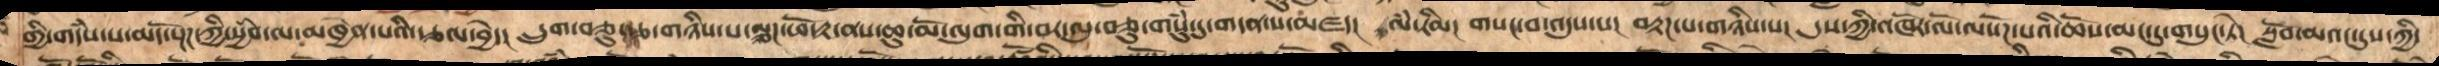གྱི་གདཾས་པས་མདོ་སྔད་ཀྱི་སྱཾབ་ལ་མཁྱེན་པའི་རྩལ་བྱེ།  དྲུག་ཅུ་རྩ་གཉིས་པ་ལྕཌ་ཕོ་རྟ་ནས་ཆུ་མོ་ལུག་གི་བར་ལུ་བཅུ་གསུཾ་དུ་གདན་ས་མཛད་།  ལཾ་རིམ།  གསང་བ་འདུས་པ།  བརྟཌ་པ་གཉིས་པ།  དུས་ཀྱི་འཁོར་ལོ་ལསོཌ་པའི་ཆོས་མང་དུ་གསུང་ཏེ།  སློབ་མའང་དུས་ཀྱི་
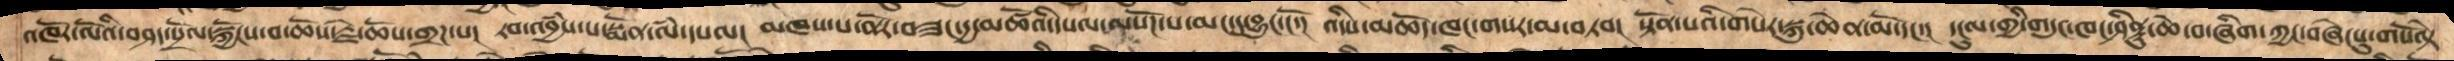འཁོར་ལོའི་བཤད་སྲོལ་སྐྱོངས་བ་ཆོས་རྗེ་ཆོས་གྲཌ་པ། རབ་འབྱཾས་པ་སྨོན་ལཾ་དཔལ།  མཁས་པ་ནོར་བཟང་དྱ་མཚོའི་དཔལ་ལསོཌ་པ་མང་དུ་བྱུང་ངོ་།  འདིས་མཆོད་ཁང་གསར་མ་བཏབ།  སྟོན་པའི་གསེར་སྐུ་ཆེན་མོ་དང་།  དངུལ་གྱི་གདུང་ཁང་ཤིནྟུ་ཆེ་བ་ཞིག་ཀྱང་བཞེངསུ་གསོལྟེ
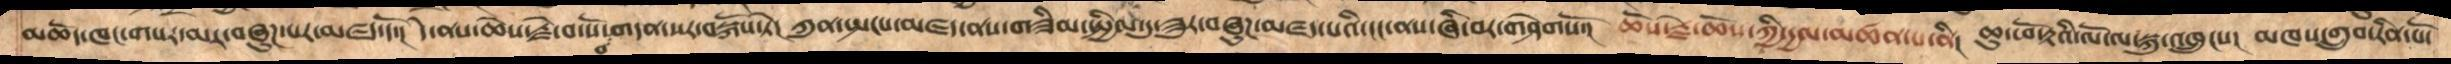མཆོད་ཁང་གསར་མར་བཞུཌ་པར་མཛད་དོ་།  དེ་ནས་ཆོས་རྗེ་བ་སོ་བ་གདན་སར་བསྐོས་ཏེ། ཀུན་སྤངས་མཛད་ནས་གཟིམ་སྤྱིལ་དུ་ཟུར་བཞུཌ་མཛད་པའི་ངང་ནས་ཞི་བར་གཤེགསོ་།  ཆོས་རྗེ་ཆོས་ཀྱི་དྱལ་མཚན་པ་ནི། ཆུ་ཕོ་རྟའི་ལོ་ལ་སྐུ་འཁྲུངས། མཁས་གྲུབ་རིན་པོ་
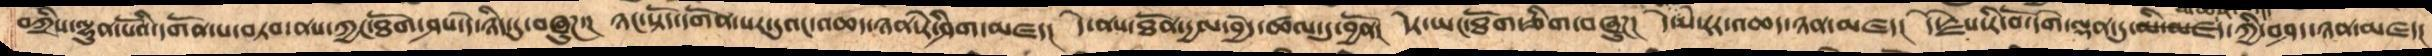བཀྲིས་ལྷུན་པོའི་དགོན་པ་བཏབ་ནས་ཀྱང་ཐོག་ཤས་དེ་ཉིད་དུ་བཞུཌ་།  ཉང་སྟོད་དགོན་པར་དུའང་འཆད་ཉན་རེ་ཤིག་མཛད།  དེ་ནས་ཐོན་དྱལ་བྱེད་ཚལ་དུ་བྱོན།  དེར་ཡང་ཐོག་ཅིག་བཞུཌ།  དེ་སེ་རར་འཆད་ཉན་མཛད།  དེ་རྗེས་རི་བོ་དགེ་ལྡན་དུ་མི་མཛད་ཀྱི་བཤད་ཉན་མཛད།
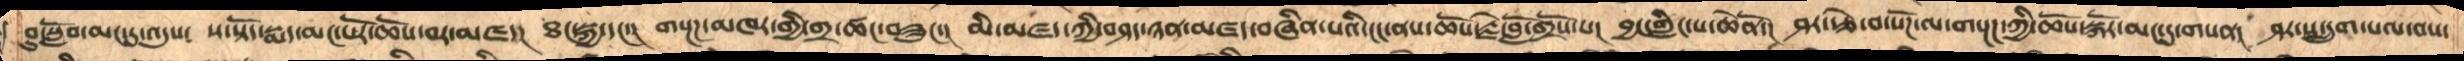བུ་སློབ་མང་དུ་འདུས།  ས་སྟོད་སྨད་མང་པོར་ཆོས་བར་མཛད།  ཐང་སྐྱ་དང་།  གསྔཌ་མཁར་གྱི་གྲ་ཚང་བཟུང་།  མི་མཛད་ཀྱི་བཤད་ཉན་མཛད་བཞིན་པའི་ངང་ནས་ཆོས་རྗེ་བློ་གྲོས་པ།  བྱང་གླིང་པ་ཆེནོ་།   ཤར་རྩེ་བ་སོཌ་ལ་གསྔཌ་ཀྱི་ཆོས་སྐོར་མང་དུ་གསན།  ཤར་ས་དྲུག་པལ་བས་
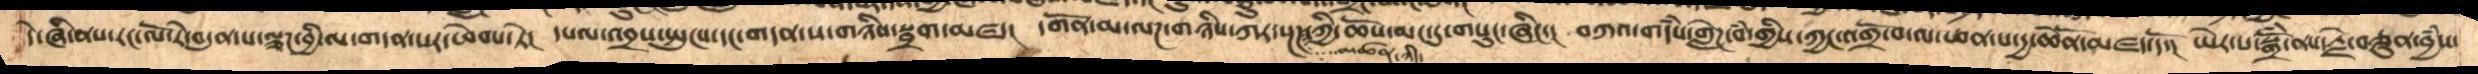དེ་ཞི་ནས་རང་ལོ་རེ་བདུན་པ་ལྕཌ་བྱི་ལ་གདན་སར་ཕེབས་ཏེ། དཔལ་འབྲས་སྤུངས་དང་གདན་ས་གཉིས་སྦྲག་མཛད། དགོན་མ་ལཌ་གཉིས་ཀར་སྔཌ་ཀྱི་ཆསོ་མང་དུ་གསུང་ཞིང་།  བཀའ་གདཾས་གླེཌ་བཾ་གྱིས་ཀྱང་འགྲོ་བ་ལ་ཕན་པ་དྱ་ཆེནོ་མཛད་དོ་།  ཡེར་པ་སྒྲོཾ་ནས་རྗེ་བཙུན་བྱཾས་
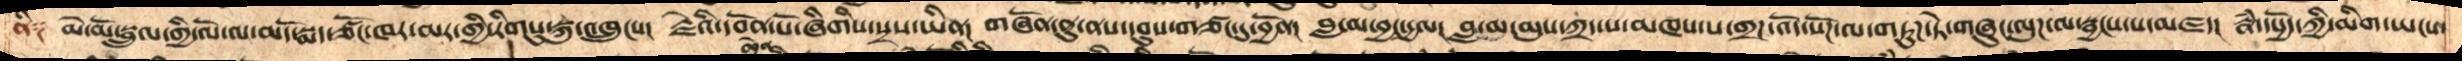ནི༑  མེ་མོ་སྦྲུལ་གྱི་ལོ་ལ་མདོ་སྨད་ཙོང་ཁར་མར་གྱི་རིགསུ་སྐུ་འཁྲུངས། རྗེའི་དབོན་པོ་ཞིགིས་སྲས་ཡིན། གཞོན་ནུ་ནས་དབུས་གཙང་དུ་བྱོན། བླ་མ་བྱང་དྱལ། བླ་མ་མུས་ཀྲད་པ་མཁས་པ་གྲཌ་འོད་སོཌ་ལ་གཏུཌ་ཏེ་གཞུ་ལུཌ་ལ་སྦྱངས་པ་མཛད།  རྣཾ་དཔྱོད་ཀྱི་མིག་ཡངས་
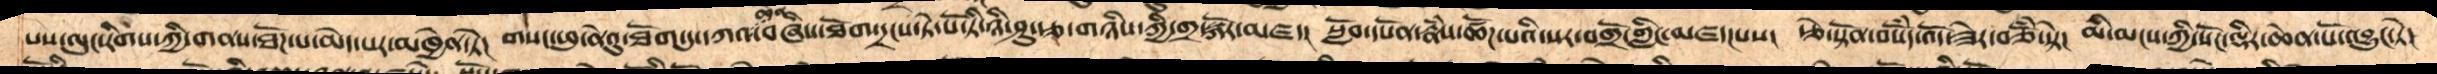པས་ལུང་རིགས་ཀྱི་གནས་ཐོཌ་པ་མེད་པར་མཁྱེན་ཏེ། གསང་ཕུ་ནེའུ་ཐོག་དུ་དཀའ་ཆེན་བཞིས་ཐོག་དྲངས་ཏེ་པོ་ཏི་ཉི་ཤུ་རྩ་གཉིས་ཀྱི་གྲ་སྐོར་མཛད། སློབ་དཔོན་རྣཾས་ཚོཌ་པའི་སར་བགྲོ་གླེངམཛད་པས།  རྩེ་སྟོན་བསོཾད་འོད་ཟེར་བཅོཾ་སྟེ། མི་དམངས་ཀྱི་སོང་ལྡིར་ཆེན་པོ་འབྱུང་ཏེ།
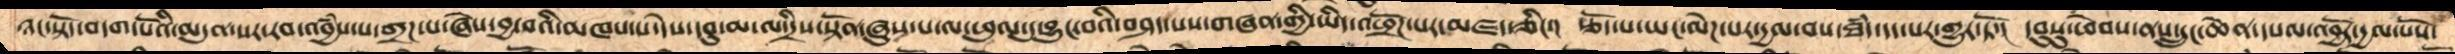ཉང་སྟོད་བདག་པོའི་མདུན་སར་རབ་འབྱཾས་པ་གྲཌ་པ་ཞེས་བྱ་བའི་མཁས་པ་དེས་དབུ་མ་ལ་དྲིས་སྟོན་ཞུས་པ་ལ་ཕུལ་དུ་བྱུང་བའི་བཤད་པས་གཞན་གྱི་ཡིད་འཕྲོཌ་པར་མཛད་ཅིང་།  རྩོད་པ་ཡང་ལེཌ་པར་དྱལ་བས་ཐཾད་དད་པར་གྱུར་ཏོ།  དབུསུ་ཕེབས་ནས་དྲུང་ཆེན་དཔལ་འབྱོར་དྱལ་པོས་
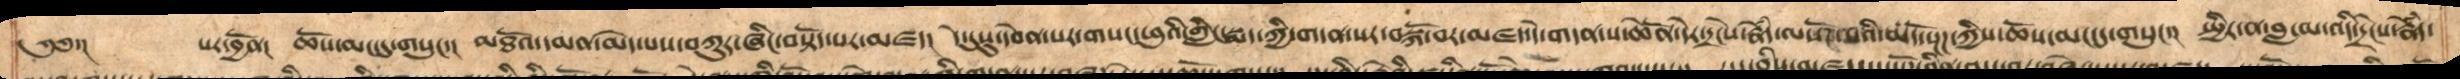༄༅་།    པར་བྱོན། ཆོས་མང་དུ་གསུང་། མཐོའ་དམན་མེད་པས་བཀུར་ཞིང་བསྟོད་པར་མཛད། དེ་དུསུ་དབེན་པརགསང་ཕུའི་གླིང་སྨད་ཀྱི་གདན་སར་བསྐོ་བར་མཛད་དེ་གདན་ས་ཆེནོ་དེར་དྲངེས་རྣེཾད་ལསོཌ་པའི་མདོ་སྔཌ་ཀྱིས་ཆོས་མང་དུ་གསུང་། སྤྱིར་ན་བླ་མ་འདི་དྲངེས་རྣེཾད་
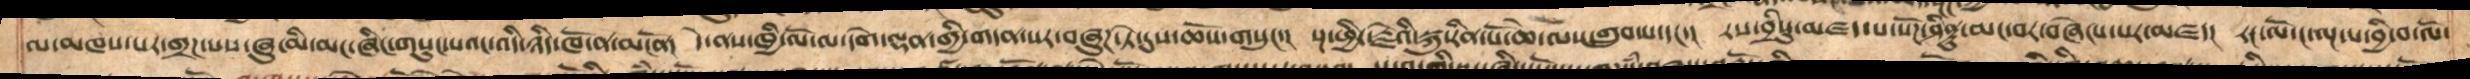ལ་མཁས་པར་གྲཌ་པས་ཞུ་མི་མང་ཞིང་གསུངས་པའང་འདི་ཉིད་ཁོ་ན་མངོན།  དེ་ནས་ཁྱི་ལོ་ལ་དགེ་ལྡན་གྱི་གདན་སར་བཞུཌ་ཏེ་དུས་ཆོས་གསུངས།  སྔ་ཕྱིར་རྗེའི་སྐུ་རིན་པོ་ཆེ་ལས་གྲུབ་པ་དང་།  རས་བྲིསུ་མཛད་པ་སོཌ་ཤིནྟུ་མང་བར་བཞེངས་པར་མཛད།  རང་ལོ་ང་ལྔ་པ་བྱི་བ་ལོ་
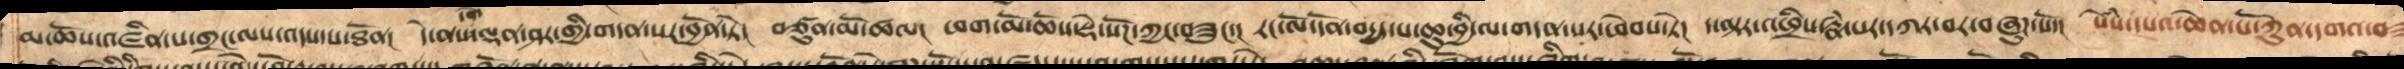མ་ཆོས་འཛིན་པ་གྲང་ལས་འདས་པ་ཐོན། དེ་ནས་དགེ་ལྡན་ཤར་གྱི་གདན་སར་བྱོན་ཏེ། བཙུན་མོ་ཚལ། ཕག་མོ་ཆོས་སྡེ་སོཌ་ཀྱང་བཟུང་། རང་ལོ་དོན་བདྱད་པ་ཆུ་བྱི་ལ་གདན་སར་ཕེབས་ཏེ། ད་ལྟ་འཕྲིས་རྣཾ་པར་དཀར་བར་བཞུཌ་སོ། སེཾས་དཔལ་ཆེན་པོ་ཀུན་དགའ་བཟང
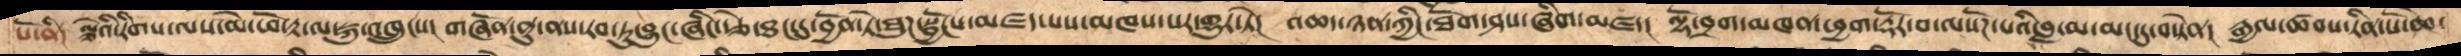པོ་ནི།  ལྕེའི་རིགས་ལས་མེ་ཕོ་རྟ་ལ་སྐུ་འཁྲུངས།  གཞོན་ནུ་ནས་རབ་ཏུ་བྱུང་ཞིང་རྩེ་ཐང་དུ་བྱོན་ཏེ་ཐུཌ་སྦྱོངས་མཛད་པས་མཁས་པར་གྱུར་ཏེ།  འཆད་ཉན་ཀྱིང་ཐོག་ཤས་ཞིག་མཛད། ལྷོ་བྲག་མཁན་ཕྱག་རྡོར་བ་ལསོཌ་པའི་བླ་མ་མང་དུ་བསྟེན།  རྒྱལ་ཚབས་རིན་པོ་ཆེ་
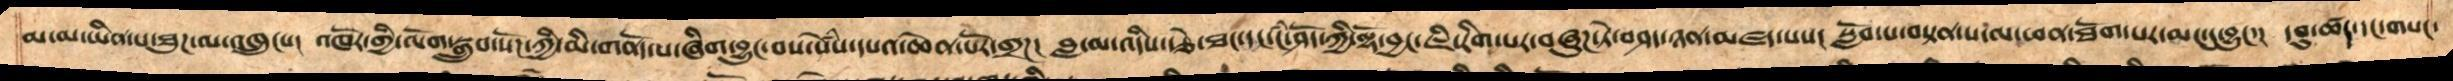མ་མ་ཡིན་པ་ཐུཌ་ལ་འཁྲུངས།  འཁོར་གྱི་ལོག་སྒྲུབ་སོཌ་ཀྱི་ཀྱང་མི་གནོད་པ་ཞིག་བྱུང་བས་སེཾས་དཔའ་ཆེན་པོར་གྲཌ།  བླ་མ་འདིས་རྩེ་ཐང་དང་།ཾ་ཤོད་ཀྱི་ལྷོ་བྱང་ཇི་རིག་པར་བཞུཌ་ཏེ་བཤད་ཉན་མཛད་པས།  སློབ་པ་བསྟན་པ་ལ་ཕན་ཐོག་པར་མང་དུ་བྱུང་།  དབུ་ཚད་དང་གསང་
